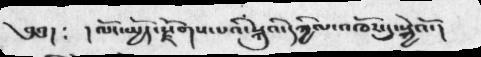༄༅། ༴ །ལོང་སྤྱོད་རྫོགས་པའི་སྐུའི་དཀྱིལ་འཁོར་དུ་སྐྱེའོ་།
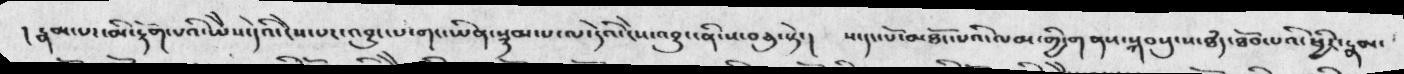།རྣམ་པར་མི་རྟོག་པའི་ཡཻས་དེའི་ངེས་པར་འབྱུང་པ་གང་ཡིན་སྙམ་པ་ལ་དེའི་ངེས་འབྱུང་ནི་ས་བཅུ་སྟེ་།  ས་དང་པོ་མཐོང་པའི་ལམ་གྱི་གནས་སྐབསུ་ས་ཐྃད་ཐོབ་པའི་ཕྱིར་རྣམ་
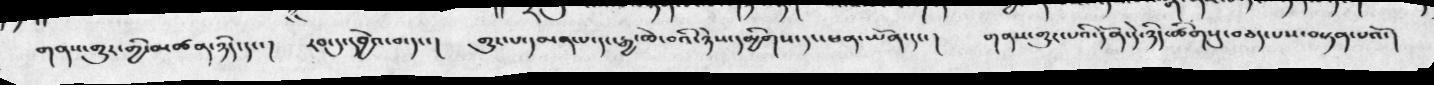གནས་གྱུག་གྱི་མཚན་ཉིད་དང་།  རབ་དུ་དབྱེའ་བ་དང་།  གྱུར་པ་དམན་པ་དང་རྒྱ་ཆེ་བའི་ཉེས་དམྱིགས་དང་ཕན་ཡོན་དང་།  གནས་གྱུར་པའི་དོན་དེ་ཉིད་ཚིགསུ་བཅད་པས་བསྟན་པའོ་།
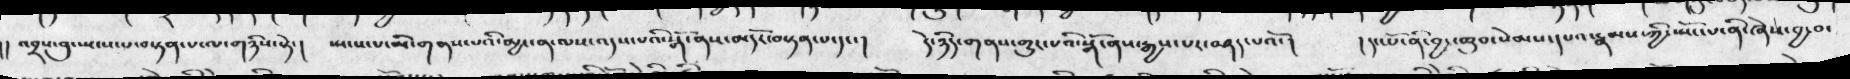།། འབྲས་བུ་སྤངས་པ་བསྟན་པ་ལ་གཉིས་སྟེ་།  སྤངས་པ་མི་གནས་པའི་མྱང་ན་ལས་འདས་པའི་སྒོ་ནས་མདོར་བསྟན་པ་དང་།  དེ་ཉིད་གནས་གྱུར་པའི་སྒོ་ནས་རྒྱས་པར་བཤད་པའོ་།  །དང་པོ་ནི་བྱང་ཆུབ་སེམས་དཔའ་རྣམས་ཀྱི་སྤོང་པ་ནི་ཞེས་བྱ་བ་
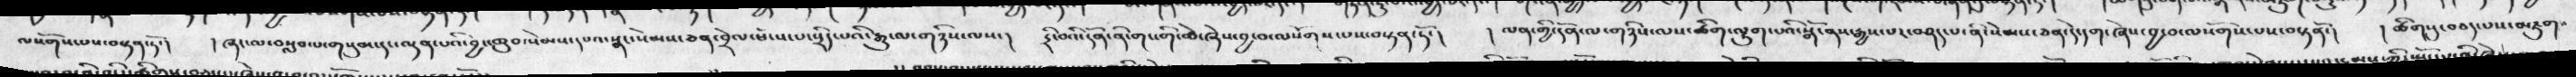ལསོགས་པས་བསྟན་ཏོ་།  ། ཞར་ལ་བསླབ་པ་གསུམ་དང་ལྡན་པའི་བྱང་ཆུབ་སེམས་དཔའ་སྣང་སེམས་ཅན་བྲེལ་ཕོངས་པ་སྲིད་པའི་རྒྱུ་ལ་གཉིས་ལས་།  དྲི་མའི་དོན་ནི་གང་གི་ཚེ་ཞེས་བྱ་བ་ལསོགས་པས་བསྟན་ཏོ་།  །  ལན་གྱི་དོན་ལ་གཉིས་ལས་ཚིག་ལྷུག་པའི་སྒོ་ནས་རྒྱས་པར་བཤད་པ་ནི་སེམས་ཅན་དེ་དག་ཞེས་བྱ་བ་ལསོགས་པས་བསྟནོ་།  ། ཚིགསུ་བཅད་པས་མཇུག་
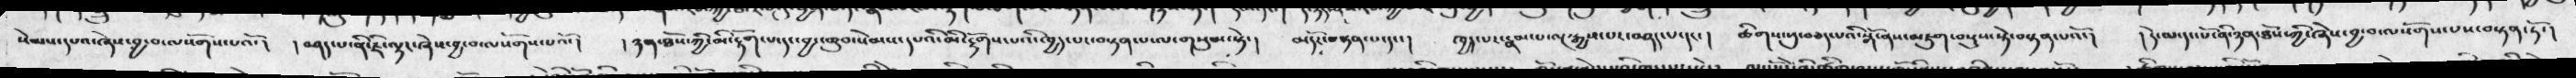སེམས་དཔའ་ཞེས་བྱ་བ་ལསོགས་པའོ་།  ། བཤད་པ་ནི་ཇི་ལྟར་ཞེས་བྱ་བ་ལསོགས་པའོ་།  ། ཉན་ཐོས་ཀྱི་མི་རྟོག་པ་དང་བྱང་ཆུབ་སེམས་དཔའི་མི་རྟོགས་པའི་ཁྱད་པར་བསྟན་པ་ལ་གསུམ་སྟེ་།  མདོར་བསྟན་པ་དང་།  ཁྱད་པར་རྣམ་པ་ལྔ་རྒྱས་པར་བཤད་པ་དང་།  ཚིགས་སུ་བཅད་པའི་སྒོ་ནས་མཇུག་བསྡུས་སྟེ་བསྟན་པའོ་།  ། དེ་ལ་དང་པོ་ནི་ཉན་ཐོས་ཀྱི་ཞེས་བྱ་བ་ལསོགས་པས་བསྟན་ཏོ་།
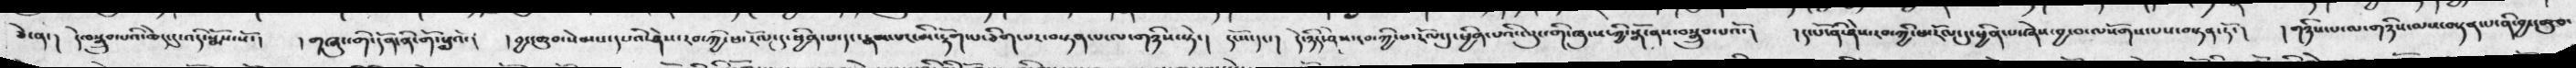ཅེ་ན་།  དེ་བསྒྲུབ་པའི་ཆེད་དུ་འདི་སྨོས་སོ་།    ། གཞུང་གི་དོན་ནི་གོ་སླའོ་།   ། བྱང་ཆུབ་སེམས་དཔའི་ཤེས་རབ་ཀྱི་ཕ་རོལ་དུ་ཕྱིན་པ་དང་རྣམ་པར་མི་རྟོག་པ་ཅིག་པར་བསྟན་པ་ལ་གཉིས་སྟེ་།   དངོས་དང་།   དེ་ཉིད་ཤེས་རབ་ཀྱི་ཕ་རོལ་དུ་ཕྱིན་པའི་ལུང་གི་ཁུངས་ཀྱི་སྒོ་ནས་བསྒྲུབ་པའོ་།    ། དང་པོ་ནི་ཤེས་རབ་ཀྱི་ཕ་རོལ་དུ་ཕྱིན་པ་ཞེས་བྱ་བ་ལསོགས་པས་བསྟན་ཏོ་།   ། གཉིས་པ་ལ་གཉིས་ལས་བསྟན་པ་ནི་བྱང་ཆུབ་
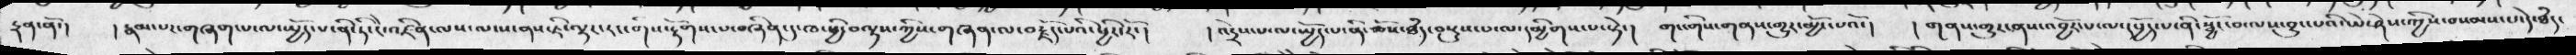རྟན་ནོ་།  །རྣམ་པར་གཞག་པ་ལ་སྤྱོད་པ་ནི་ཏི་ངེ་འཛིན་ལས་ལངས་ནས་ཇི་ལྟར་རང་གིས་རྟོགས་པ་བཞིན་དུ་ཁ་ཕྱི་བལྟས་ཀྱི་གཞན་ལ་བརྗོད་པའི་ཕྱིར་རོ་།  །འདྲེས་པ་ལ་སྤྱོད་པ་ནི་ཆོས་ཐཾད་ལ་བསྡུས་པ་ལ་དམྱིགས་པ་སྟེ་།  གང་གིས་གནས་གྱུར་མྱོང་པའོ་།  །གནས་གྱུར་ནས་འབྱོར་པ་ལ་དཔྱོད་པ་ནི་སྦྱོར་བ་ལས་བྱུང་པའི་ཡེ་ཤེས་ཀྱིས་བསམས་པ་དེ་ཐཾད་
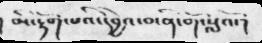། མི་རྟོག་པའི་དབྱེའ་བ་ནི་གོ་སླའོ་།
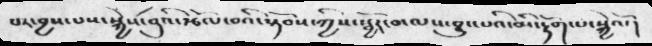པར་བྱས་པས་སྐྱེས་བུའི་རྩོལ་བའི་སྟོབས་ཀྱིས་སྦྱོར་བ་ལས་བྱུང་པའི་མི་རྟོག་པ་སྐྱེའོ་།
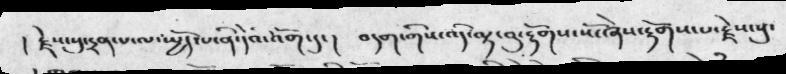།  རྗེས་སུ་དྲན་པ་ལ་སྤྱོད་པ་ནི་དའེི་འོག་དུ་།  བདག་གིས་འདི་ལྟ་བུ་རྟོགས་སོ་ཞེས་རྟོགས་པ་རྗེས་སུ་
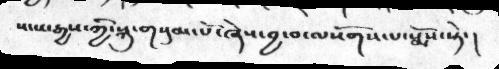སངས་རྒྱས་ཀྱི་སྐུ་གསུམ་པོ་ཞེས་བྱ་བ་ལསོགས་པ་སྨོས་སྟེ་ །
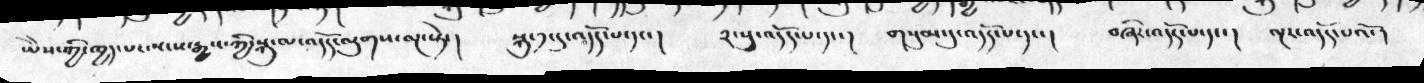ཡེེས་གྱི་ཁྱད་པར་སངས་རྒྱས་ཀྱི་སྐྱུ་ལ་འདོད་ལུགས་ལྔ་སྟེ་།   སྐུ་༡་དུ་འདོད་པ་དང་།  ༢་སུ་འདོད་པ་དང་།  གསུམ་དུ་འདོད་པ་དང་།  བཞིར་འདོད་པ་དང་།  ལྔར་འདོད་པའོ་།
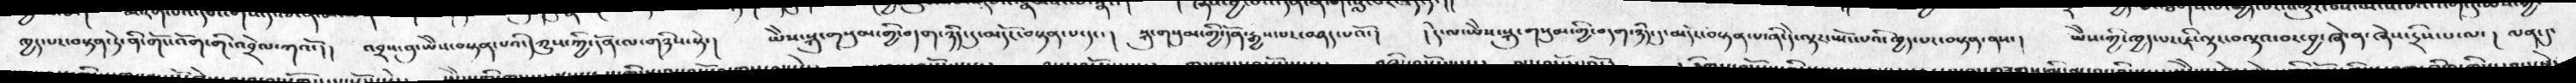ཁྱད་པར་བསྟན་དེ་ནི་གོང་འོག་གི་འབྲེལ་ཀའོ་།།   འབྲས་བུ་ཡེེས་བསྟན་པའི་དཀྱུས་ཀྱི་དོན་ལ་གཉིས་སྟེ་།   ཡེེས་སྐུ་གསུམ་གྱི་བདག་ཉིད་དུ་མདོར་བསྟན་པ་དང་།   སྐུ་གསུམ་གྱི་དོན་རྒྱས་པར་བཤད་པའོ་།་  ། དེ་ལ་ཡེེས་སྐུ་གསུམ་གྱི་བདག་ཉིད་དུ་མདོར་བསྟན་པ་ནི་དེ་ལྟར་སྤོང་པའི་ཁྱད་པར་བསྟན་ནས་།   ཡེེས་ཀྱི་ཁྱད་པར་ཇི་བལྟའ་བར་བྱ་ཞེ་ན་ཞེས་དྲིས་པ་ལ་།    ལན་དུ་
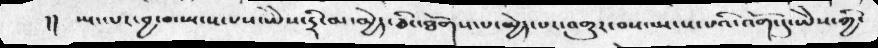།།  སྤང་པར་བྱ་བ་སྤངས་པས་ཡཻས་དྲི་མ་མྱེད་ཅིང་ཐོགས་པ་མྱེད་པ་འགྱུར་བས་སྤངས་པའི་འོག་དུ་ཡཻས་ཀྱི་
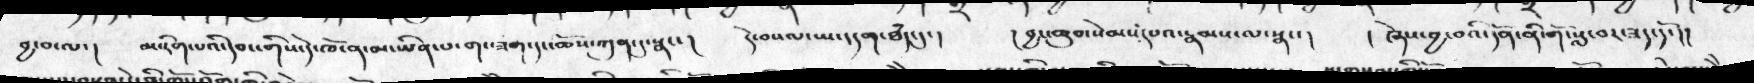བྱ་བ་ལ་ལ་།    མ་རིག་པའི་དབང་གིས་དེ་ཁོ་ན་མ་ཡིན་པ་གང་ཟག་དང་ཆོས་ཀུན་དུ་སྣང་།   དེ་བསལ་ཡང་དག་ཐཾད་དུ་།   ། བྱང་ཆུབ་སེམས་དཔའ་རྣམས་ལ་སྣང་།   ། ཞེས་བྱ་བའི་དོན་ནི་གོ་སླ་བར་ཟད་དོ་།།
